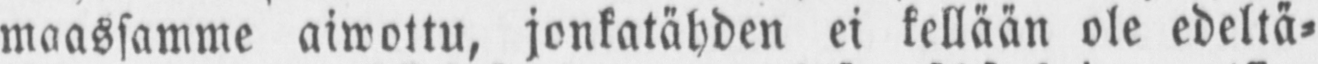maassamme aiwottu, jonkatähden ei kellään ole edeltä-
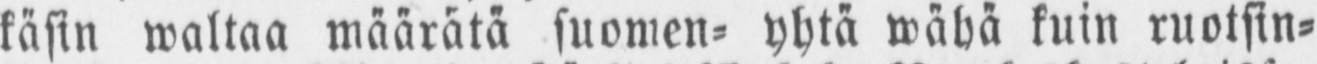käsin waltaa määrätä suomen- yhtä wähä kuin ruotsin-
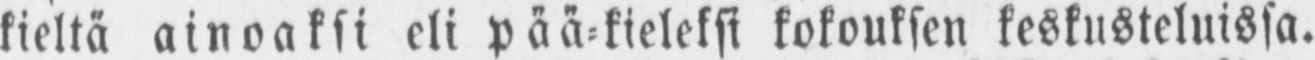kieltä ainoaksi eli pää-kieleksi kokouksen keskusteluissa.
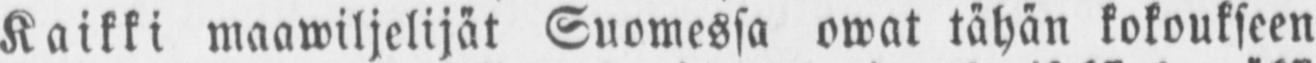Kaikki maawiljelijät Suomessa owat tähän kokoukseen
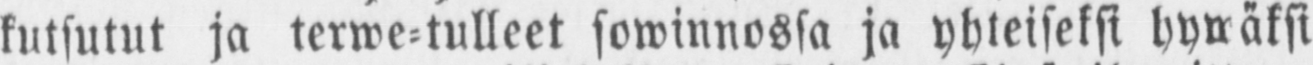kutsutut ja terwe-tulleet sowinnossa ja yhteiseksi hywäksi
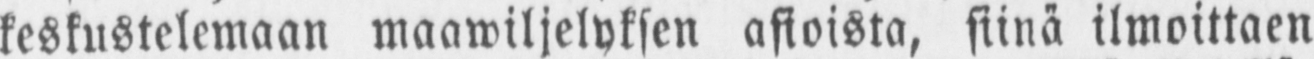keskustelemaan maanwiljelyksen asioista, siinä ilmoittaen
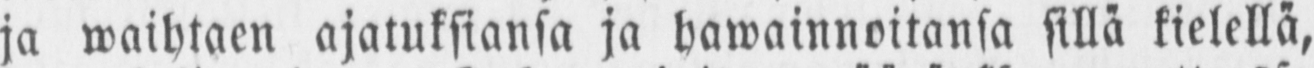ja waihtaen ajatuksiansa ja hawainnoitansa sillä kielellä,
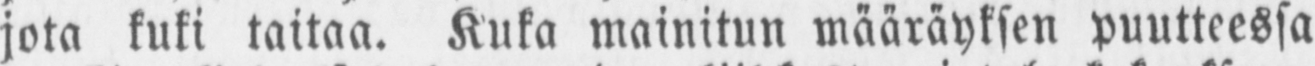jota kuki taitaa. Kuka mainitun määräyksen puutteessa
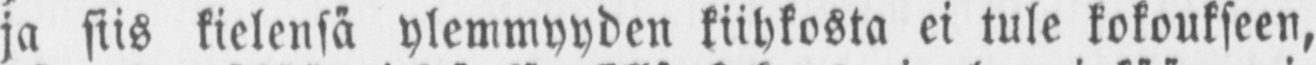ja siis kielensä ylemmyyden kiihkosta ei tule kokoukseen,
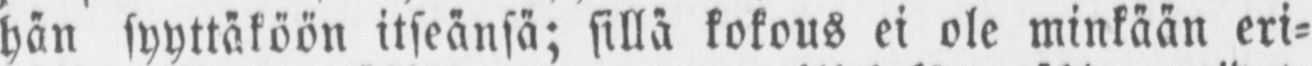hän syyttäköön itseänsä; sillä kokous ei ole minkään eri-
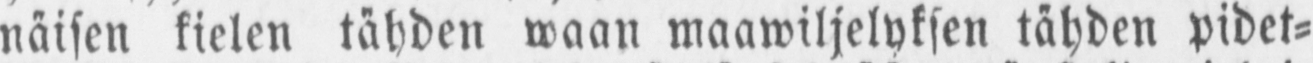näisen kielen tähden waan maawiljelyksen tähden pidet-
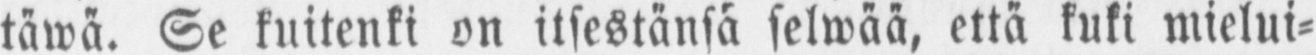täwä. Se kuitenki on itsestänsä selwää, että kuki mielui-
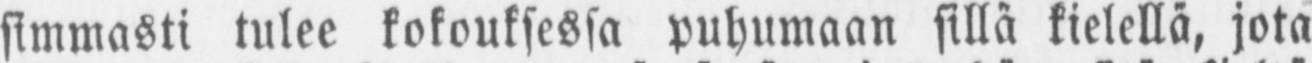simmasti tulee kokouksessa puhumaan sillä kielellä, jota
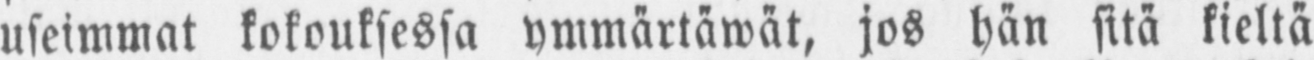useimmat kokouksessa ymmärtäwät, jos hän sitä kieltä
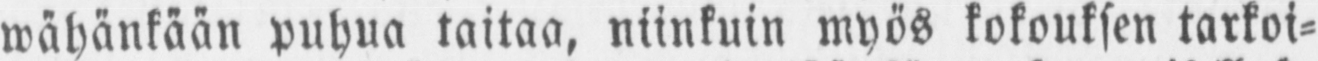wähänkään puhua taitaa, niinkuin myös kokouksen tarkoi-
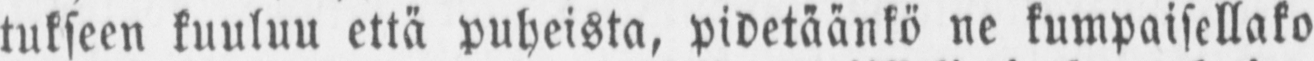tukseen kuuluu että puheista, pidetäänkö ne kumpaisellako
